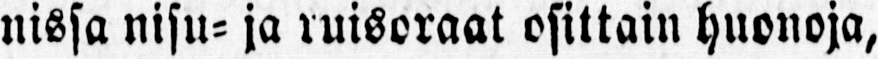nissa nisu- ja ruisoraat osittain huonoja,
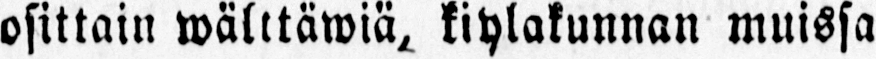osittain wälttäwiä kihlakunnan muissa
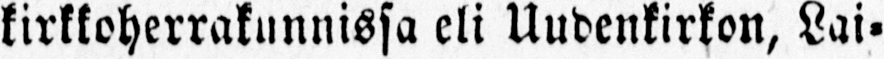kirkkoherrakunnissa eli Uudenkirkon, Lai-
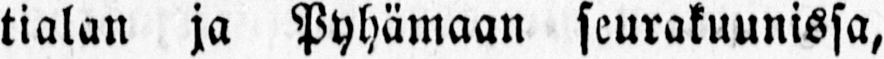tialan ja Pyhämaan seurakuunissa,
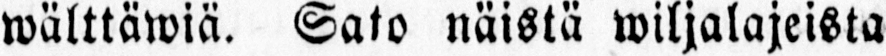wäittäwiä. Sato näistä wiljalajeista
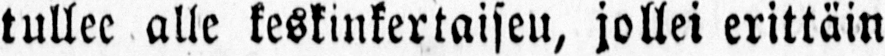tullee alle keskinkertaiseu, jollei erittäin
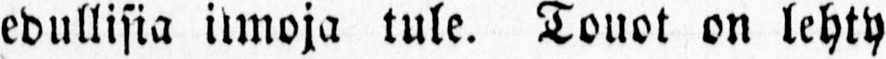edullisia ilmoja tule. Touot on lehty
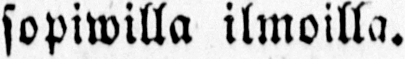sopiwilla ilmoilla.
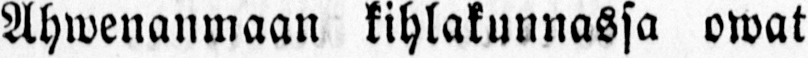Ahwenanmaan kihlakunnassa owat
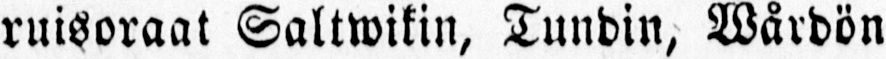ruisoraat Saltwikin, Tundin, Wårdön
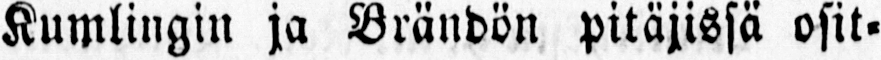Kumlingin ja Brändön pitäjissä osit-
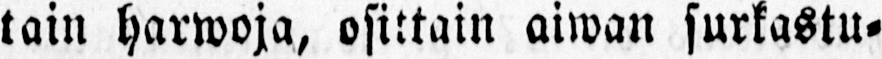tain harwoja, osittain aiwan surkastu-
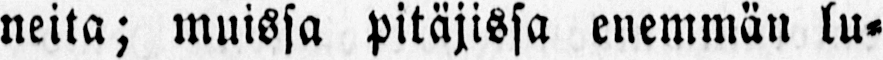neita; muissa pitäjissä enemmän lu-
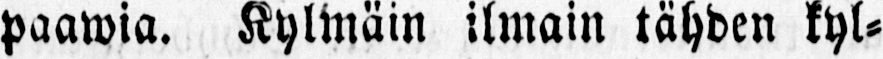paawia. Kylmäin ilmain tähden kyl-
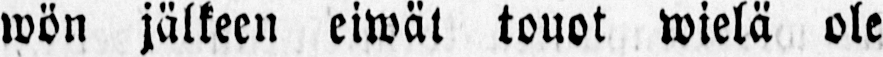wön jälkeen eiwät touot wielä ole
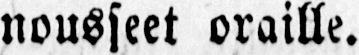nousseet oraille.
